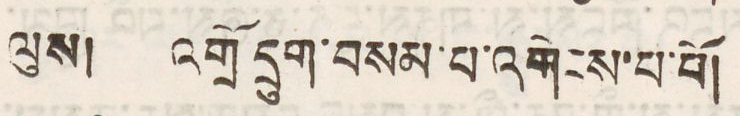ལུས། འགྲོ དྲུག་བསམ་པ་འགེངས་པ་པོ།
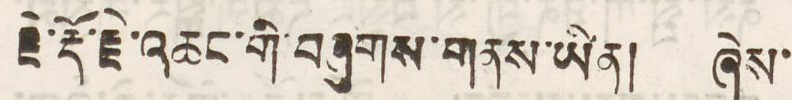རྗེ་རྡོ་རྗེ་འཆང་གི་བཞུགས་གནས་ཡིན། ཞེས་
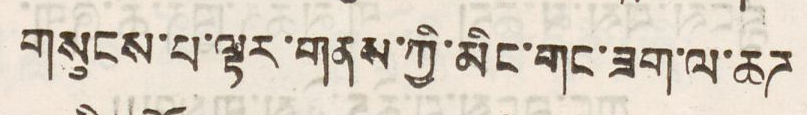གསུངས་པ་ལྟར་གནས་ཀྱི་མིང་གང་ཟག་ལ་ཆཌ
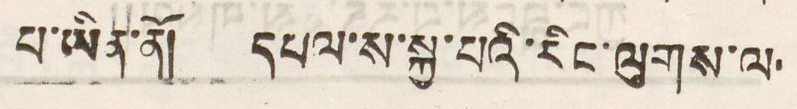པ་ཡིན་ནོ། དཔལ་ས་སྐྱ་པའི་རིང་ལུགས་ལ་
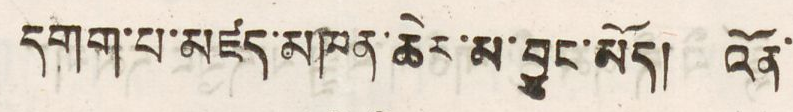དགག་པ་མཛད་མཁན་ཆེར་མ་བྱུང་མོད། འོན་
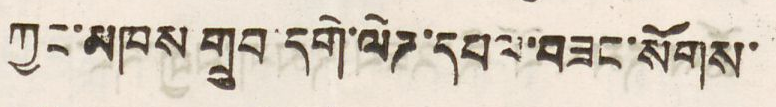ཀྱང་མཁས་གྲུབ་དགེ་ལེཌ་དཔལ་བཟང་སོགས་
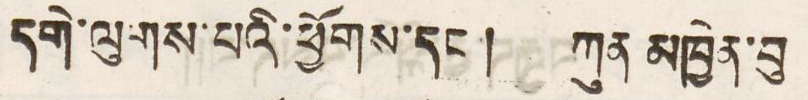དགེ་ལུགས་པའི་ཕྱོགས་དང་། ཀུན མཁྱེན་བུ
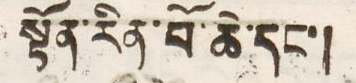སྟོན་རིན་པོ་ཆེ་དང་།
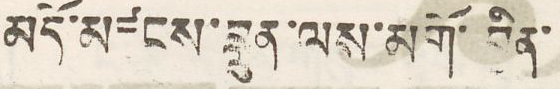མདོ་མཛངས་བླུན་ལས་མགོ་བྱིན་
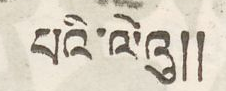པའི་ལེའུ།།
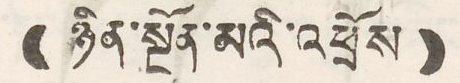(( ཉིན་སྔོན་མའི་འཕྲོས ))
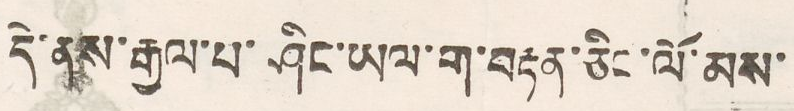དེ་ནས་རྒྱལ་པ་ཤིང་ཡལ་ག་བརྟན་ཅིང་ལོ་མས་
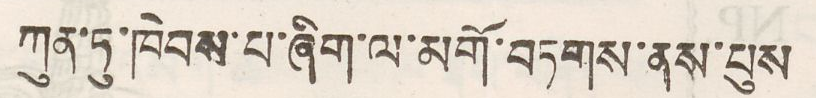ཀུན་ཏུ་ཁེབས་པ་ཞིག་ལ་མགོ་བཏགས་ནས་པུས
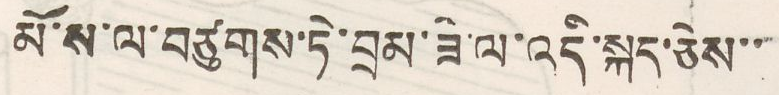མོ་ས་ལ་བཙུགས་ཏེ་བྲམ་ཟེ་ལ་འདི་སྐད་ཅེས་་
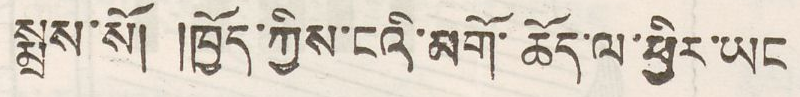སྨྲས་སོ། །ཁྱོད་ཀྱིས་ངའི་མགོ་ཆོད་ལ་ཕྱིར་ཡང
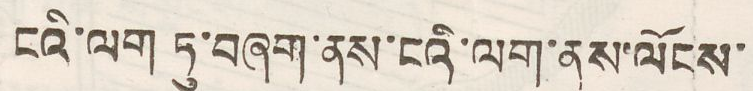ངའི་ལག ཏུ་བཞག་ནས་ངའི་ལག་ནས་ལོངས་
